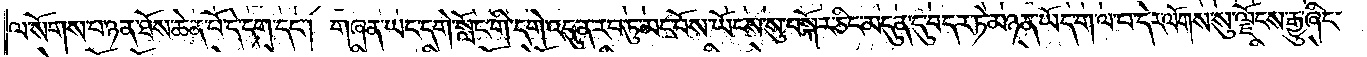ལ་སོགས་པ་ཉན་ཐོས་ཆེན་པོ་དེ་དག་དང༌། གཞན་ཡང་དགེ་སློང་གི་དགེ་འདུན་རབ་ཏུ་མང་པོས་ཡོངས་སུ་བསྐོར་ཅིང་མདུན་དུ་བདར་ཏེ་མཉན་ཡོད་ག་ལ་དེར་ལོགས་སུ་ལྗོངས་རྒྱུ་ཞིང་
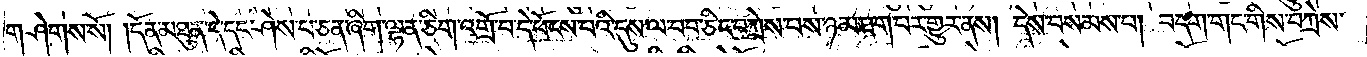གཤེགས་སོ། །དོན་མཐུན་དེ་དང་ཤེས་པ་ཅན་ཞིག་ལྷན་ཅིག་འགྲོ་བ་དེ་ཕོངས་པའི་དུས་ལ་བབ་ཅིང་བཀྲེས་པས་ཉམ་ཐག་པར་གྱུར་ནས། དེས་བསམས་པ། བདག་གང་གིས་བཀྲེས་
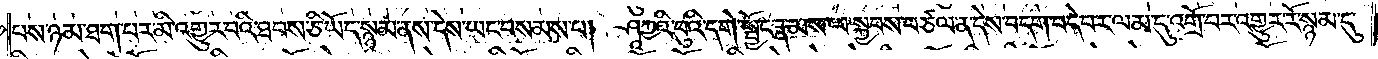པས་ཉམ་ཐག་པར་མི་འགྱུར་བའི་ཐབས་ཅི་ཡོད་སྙམ་ནས་དེས་ཡང་བསམས་པ། ཤཱཀྱའི་བུའི་དགེ་སྦྱོང་རྣམས་ལ་སྐྱབས་བཙལ་ན་དེས་བདག་བདེ་བར་ལམ་དུ་འགྲོ་བར་འགྱུར་རོ་སྙམ་དུ་
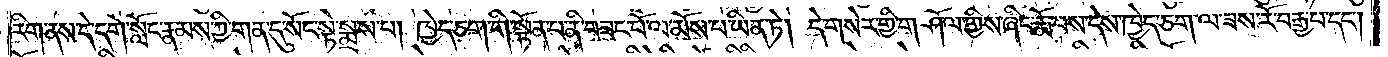རིག་ནས་དེ་དགེ་སློང་རྣམས་ཀྱི་གན་དུ་སོང་སྟེ་སྨྲས་པ། ཁྱེད་ཅག་གི་སྟོན་པ་ནི་བཟང་པོ་ལ་མོས་པ་ཡིན་ཏེ། དེ་གསེར་གྱི་གཤོལ་གྱིས་ཞིང་རྨོ་བས་དེས་ཁྱེད་ཅག་ལ་ཟས་རོ་བརྒྱ་པ་དང༌།
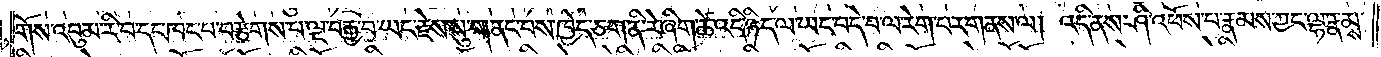གོས་འབུམ་རི་བ་དང་ཁང་པ་བརྩེགས་པ་ལྔ་བརྒྱ་པ་ཡང་རྗེས་སུ་གནང་བས་ཁྱེད་ཅག་ནི་རེ་ཞིག་ཚེ་འདི་ཉིད་ལ་ཡང་བདེ་བ་ལ་རེག་པར་གནས་ལ། འདི་ནས་ཤི་འཕོས་པ་རྣམས་ཀྱང་ལྷ་རྣམས་
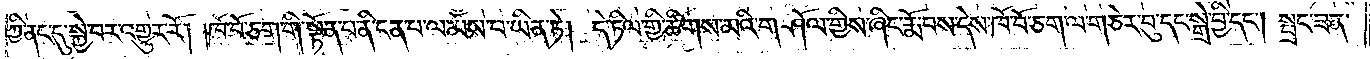ཀྱི་ནང་དུ་སྐྱེ་བར་འགྱུར་རོ། །ཁོ་བོ་ཅག་གི་སྟོན་པ་ནི་ངན་པ་ལ་མོས་པ་ཡིན་ཏེ། དེ་ཏིལ་གྱི་ཚིགས་མའི་གཤོལ་གྱིས་ཞིང་རྨོ་བས་དེས་ཁོ་བོ་ཅག་ལ་གཅེར་བུ་དང་སྒྲེ་བྱི་དང༌། སྦྲང་ཟན་
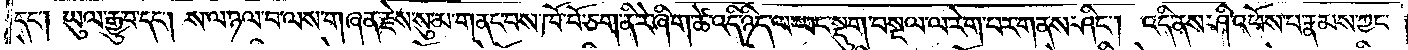དང༌། ཡུལ་རྒྱུ་བ་དང༌། ས་ལ་ཉལ་བ་ལས་གཞན་རྗེས་སུ་མ་གནང་བས་ཁོ་བོ་ཅག་ནི་རེ་ཞིག་ཚེ་འདི་ཉིད་ལ་ཡང་སྡུག་བསྔལ་ལ་རེག་པར་གནས་ཤིང༌། འདི་ནས་ཤི་འཕོས་པ་རྣམས་ཀྱང་
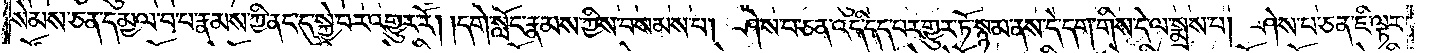སེམས་ཅན་དམྱལ་བ་པ་རྣམས་ཀྱི་ནང་དུ་སྐྱེ་བར་འགྱུར་རོ། །དགེ་སློང་རྣམས་ཀྱིས་བསམས་པ། ཤེས་པ་ཅན་འདི་དད་པར་གྱུར་ཏོ་སྙམ་ནས་དེ་དག་གིས་དེ་ལ་སྨྲས་པ། ཤེས་པ་ཅན་ཇི་ལྟར་
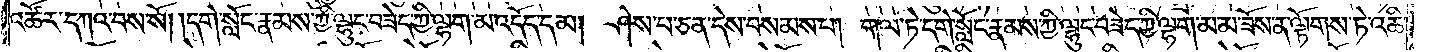འཚོར་དཀའ་བས་སོ། །དགེ་སློང་རྣམས་ཀྱི་ལྷུང་བཟེད་ཀྱི་ལྷག་མ་འདོད་དམ། ཤེས་པ་ཅན་དེས་བསམས་པ། གལ་ཏེ་དགེ་སློང་རྣམས་ཀྱི་ལྷུང་བཟེད་ཀྱི་ལྷག་མ་མ་ཟོས་ན་ལྟོགས་ཏེ་འཆི་
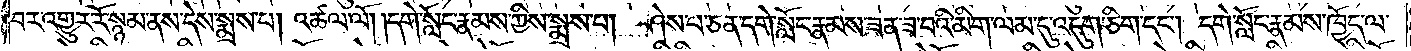བར་འགྱུར་རོ་སྙམ་ནས་དེས་སྨྲས་པ། འཚལ་ལོ། །དགེ་སློང་རྣམས་ཀྱིས་སྨྲས་པ། ཤེས་པ་ཅན་དགེ་སློང་རྣམས་ཟན་ཟ་བའི་མིག་ལམ་དུ་འདུག་ཅིག་དང༌། དགེ་སློང་རྣམས་ཁྱོད་ལ་
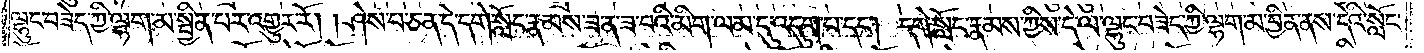ལྷུང་བཟེད་ཀྱི་ལྷག་མ་སྦྱིན་པར་འགྱུར་རོ། །ཤེས་པ་ཅན་དེ་དགེ་སློང་རྣམས་ཟན་ཟ་བའི་མིག་ལམ་དུ་འདུག་པ་དང༌། དགེ་སློང་རྣམས་ཀྱིས་དེ་ལ་ལྷུང་བཟེད་ཀྱི་ལྷག་མ་བྱིན་ནས་དེའི་སློང་
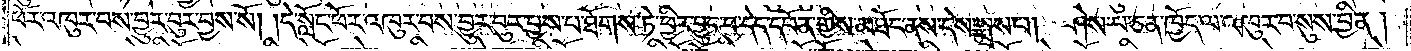ཕོར་འཁུར་བས་བྱུར་བུར་བྱས་སོ། །དེ་སློང་ཕོར་འཁུར་བས་བྱུར་བུར་བྱས་པ་ཐོགས་ཏེ་ཕྱིར་བྱུང་བ་དེད་དཔོན་གྱིས་མཐོང་ནས་དེས་སྨྲས་པ། ཤེས་པ་ཅན་ཁྱོད་ལ་འཁུར་བ་སུས་བྱིན།
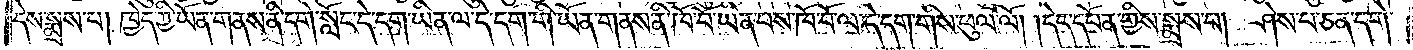དེས་སྨྲས་པ། ཁྱེད་ཀྱི་ཡོན་གནས་ནི་དགེ་སློང་དེ་དག་ཡིན་ལ་དེ་དག་གི་ཡོན་གནས་ནི་ཁོ་བོ་ཡིན་པས་ཁོ་བོ་ལ་དེ་དག་གིས་ཕུལ་ལོ། །དེད་དཔོན་གྱིས་སྨྲས་པ། ཤེས་པ་ཅན་དགེ་
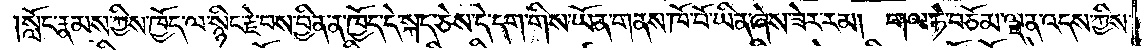སློང་རྣམས་ཀྱིས་ཁྱོད་ལ་སྙིང་རྗེ་བས་བྱིན་ན་ཁྱོད་དེ་སྐད་ཅེས་དེ་དག་གིས་ཡོན་གནས་ཁོ་བོ་ཡིན་ཞེས་ཟེར་རམ། གལ་ཏེ་བཅོམ་ལྡན་འདས་ཀྱིས་
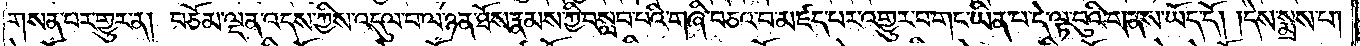གསན་པར་གྱུར་ན། བཅོམ་ལྡན་འདས་ཀྱིས་འདུལ་བ་ལ་ཉན་ཐོས་རྣམས་ཀྱི་བསླབ་པའི་གཞི་བཅའ་བ་མཛད་པར་འགྱུར་བ་གང་ཡིན་པ་དེ་ལྟ་བུའི་གནས་ཡོད་དོ། །དེས་སྨྲས་པ།
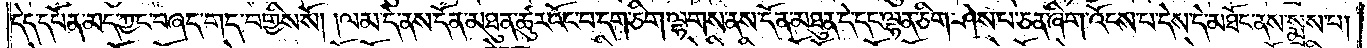དེད་དཔོན་མད་ཀྱང་བཞད་གད་བགྱིས་སོ། །ལམ་དེ་ནས་དོན་མཐུན་ཚུར་འོང་བ་དག་ཅིག་ལྷགས་ནས་དོན་མཐུན་དེ་དང་ལྷན་ཅིག་ཤེས་པ་ཅན་ཞིག་འོངས་པ་དེས་དེ་མཐོང་ནས་སྨྲས་པ།
